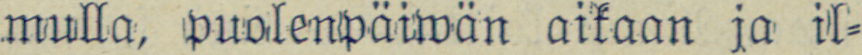mulla, puolenpäiwän aikaan ja il-
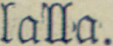lalla.
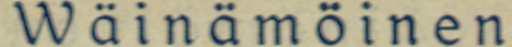Wäinämöinen
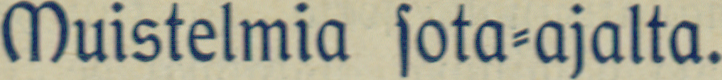Muistelmia sota-ajalta.
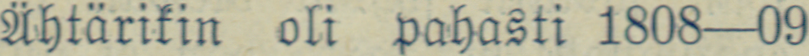Ähtärikin oli pahasti 1808 —09
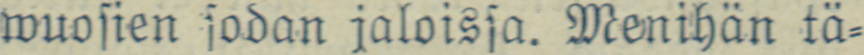wuosien sodan jaloissa. Menihän tä-
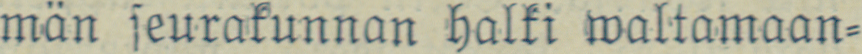män seurakunnan halki waltamaan-
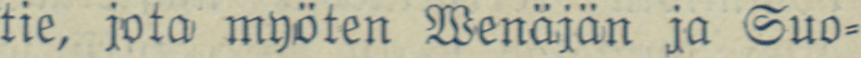tie, jota myöten Wenäjän ja Suo-
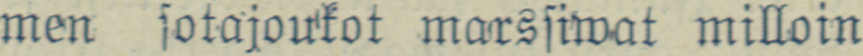men sotajoukot marssiwat milloin
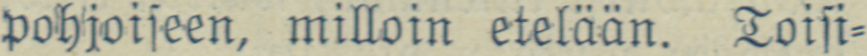pohjoiseen, milloin etelään. Toisi-
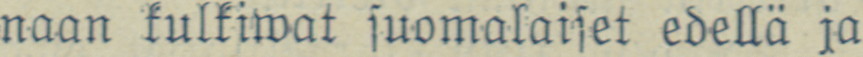naan kulkiwat suomalaiset edellä ja
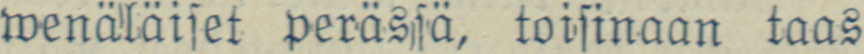wenäläiset perässä, toisinaan taas
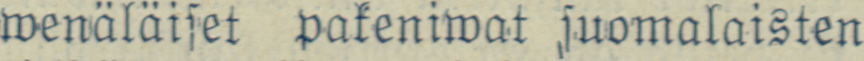wenäläiset pakeniwat suomalaisten
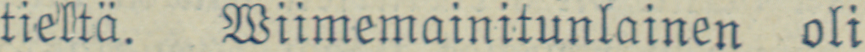tieltä. Wiimemainitunlainen oli
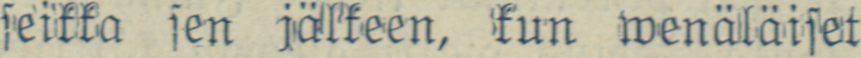seikka sen jälkeen, kun wenäläiset
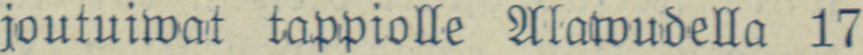joutuiwat tappiolle Alawudella 17
